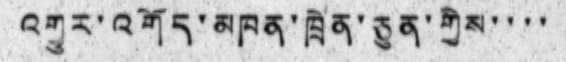འགྱུར་འགོད་མཁན་ཁྲེན་ཅུན་གྱིས་་་་
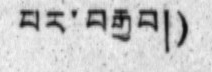པར་བརྒྱབ།)
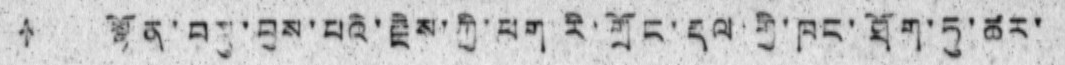↑ སྟོན་བསྡུ་བྱས་པའི་རྗེས་ཀྱི་ཕག་རི་གྲོང་དལ་གྱི་ཁང་ཐོག་ཏུ་ཚར་
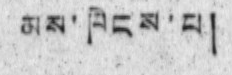མས་ཁེངས་པ།
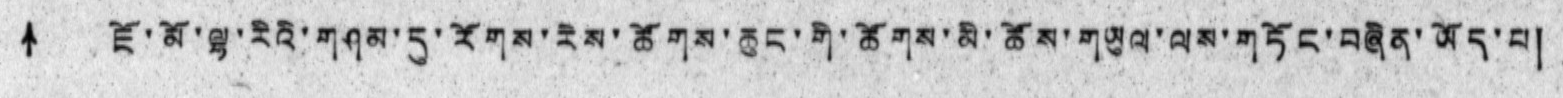↑ ཇོ་མོ་ལྷ་རིའི་གཤམ་དུ་རོགས་རེས་ཚོགས་ཆུང་གི་ཚོགས་མི་ཚོས་གཡུལ་ལས་གཏོང་བཞིན་ཡོད་པ།
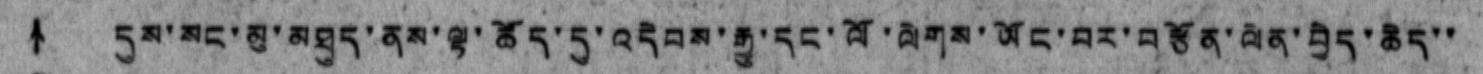↑ དུས་སང་མུ་མཐུད་ནས་ལྟ་ཚོད་དུ་འདེབས་རྒྱུ་དང་ལོ་ལེགས་ཡོང་བར་བརྩོན་ལེན་བྱེད་ཆེད་་
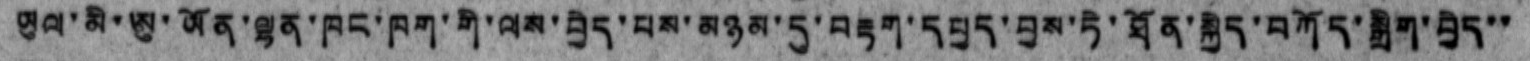ཡུལ་མི་ཨུ་ཡོན་ལྷན་ཁང་ཁག་གི་ལས་བྱེད་པས་མཉམ་དུ་བརྟག་དཔྱད་བྱས་ཏེ་ཐོན་སྐྱེད་བཀོད་སྒྲིག་བྱེད་་
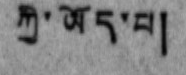ཀྱི་ཡོད་པ།
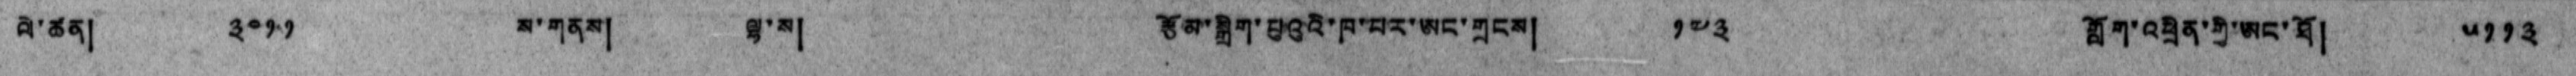ལེ་ཚན།  ༣༠༡༡ ས་གནས། ལྷ་ས། རྩོམ་སྒྲིག་པུའུའི་ཁ་པར་ཨང་གྲངས། ༡༧༣ གློག་འཕྲིན་གྱི་ཨང་ཐོ། ༥༡༡༣
